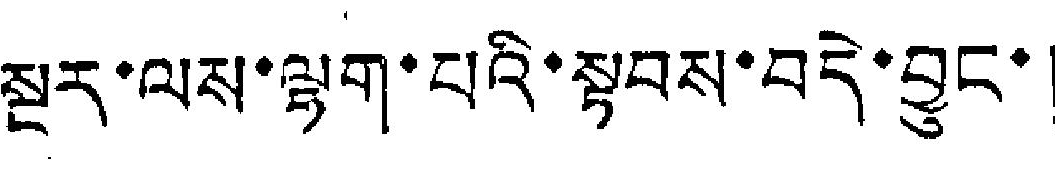སྔར་ལས་ལྷག་པའི་སྟབས་བདེ་བྱུང་།
